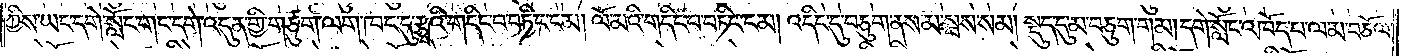ཀྱིས་ཡང་དགེ་སློང་གང་དགེ་འདུན་གྱི་གཙུག་ལག་ཁང་དུ་རྩྭའི་གདིང་བ་བཏིང་ངམ། ལོ་མའི་གདིང་བ་བཏིང་ངམ། འདིང་དུ་བཅུག་ནས་མ་སྦས་སམ། སྡུད་དུ་མ་བཅུག་གམ། དགེ་སློང་འཁོད་པ་ལ་མ་བཅོལ་
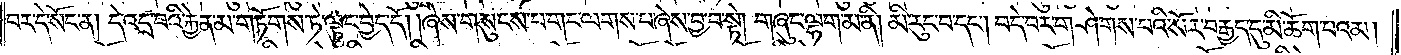བར་དེ་སོང་ན། དེ་འདྲ་བའི་རྐྱེན་མ་གཏོགས་ཏེ་ལྟུང་བྱེད་དོ། །ཞེས་གསུངས་པ་གང་ལགས་པ་ཞེས་བྱ་བ་སྟེ། གཞུང་ལྷག་མ་ནི། མི་རུང་བ་དང༌། བདེ་བར་གཤེགས་པའི་སོར་བརྒྱད་དུ་མི་ཆོག་པའམ།
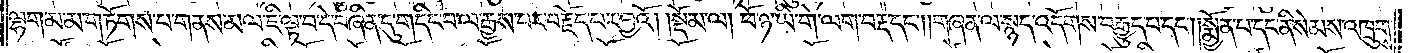ལྷག་མ་མ་གཏོགས་པ་གནས་མལ་ཇི་ལྟ་བ་དེ་བཞིན་དུ་གདིང་བ་ལ་རྒྱས་པར་བརྗོད་པར་བྱའོ། །སྡོམ་ལ། ཕོ་ཉ་ཡི་གེ་ལག་བརྡ་དང༌། །གཞན་ལ་སྙད་འདོགས་བརྒྱུད་པ་དང༌། །སྨྱོན་པ་དང་ནི་སེམས་འཁྲུགས་
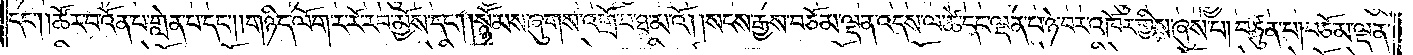དང༌། །ཚོར་བ་འོན་པ་གླེན་པ་དང༌། །གཉིད་ལོག་ར་རོ་རབ་མྱོས་དང༌། །སྙོམས་ཞུགས་འགྲོ་བ་ཐ་མ་འོ། །སངས་རྒྱས་བཅོམ་ལྡན་འདས་ལ་ཚེ་དང་ལྡན་པ་ཉེ་བར་འཁོར་གྱིས་ཞུས་པ། བཙུན་པ། བཅོམ་ལྡན་
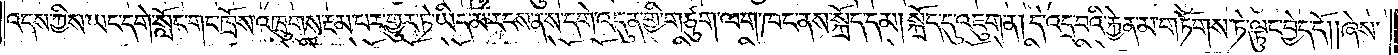འདས་ཀྱིས་ཡང་དགེ་སློང་གང་ཁྲོས་འཁྲུགས་རྔམ་པར་གྱུར་ཏེ་ཡིད་མ་རངས་ནས་དགེ་འདུན་གྱི་གཙུག་ལག་ཁང་ནས་སྐྲོད་དམ། སྐྲོད་དུ་འཇུག་ན། དེ་འདྲ་བའི་རྐྱེན་མ་གཏོགས་ཏེ་ལྟུང་བྱེད་དོ། །ཞེས་
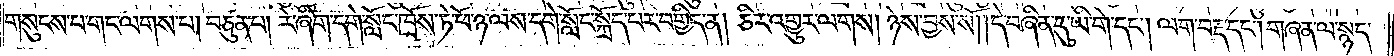གསུངས་པ་གང་ལགས་པ། བཙུན་པ། རེ་ཞིག་དགེ་སློང་ཁྲོས་ཏེ་ཕོ་ཉ་ལས་དགེ་སློང་སྐྲོད་པར་བགྱིད་ན། ཅིར་འགྱུར་ལགས། ཉེས་བྱས་སོ། །དེ་བཞིན་དུ་ཡི་གེ་དང༌། ལག་བརྡ་དང༌། གཞན་ལ་སྙད་
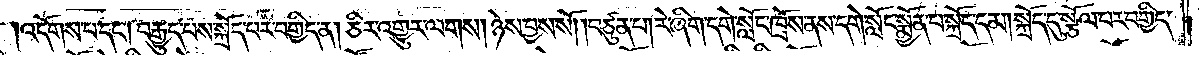འདོགས་པ་དང༌། བརྒྱུད་པས་སྐྲོད་པར་བགྱིད་ན། ཅིར་འགྱུར་ལགས། ཉེས་བྱས་སོ། །བཙུན་པ། རེ་ཞིག་དགེ་སློང་ཁྲོས་ནས་དགེ་སློང་སྨྱོན་པ་སྐྲོད་དམ། སྐྲོད་དུ་སྩོལ་པར་བགྱིད་
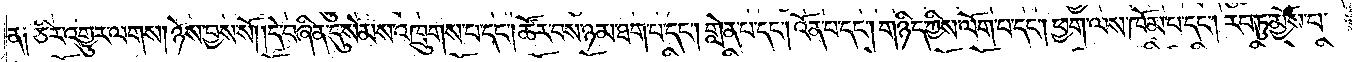ན༑ ཅིར་འགྱུར་ལགས། ཉེས་བྱས་སོ། །དེ་བཞིན་དུ་སེམས་འཁྲུགས་པ་དང༌། ཚོར་བས་ཉམ་ཐག་པ་དང༌། གླེན་པ་དང༌། འོན་པ་དང༌། གཉིད་ཀྱིས་ལོག་པ་དང༌། ཕྱག་ལས་ཁོམ་པ་དང༌། རབ་ཏུ་མྱོས་པ་
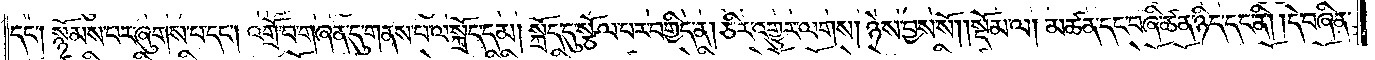དང༌། སྙོམས་པར་ཞུགས་པ་དང༌། འགྲོ་བ་གཞན་དུ་གནས་པ་ལ་སྐྲོད་དམ། སྐྲོད་དུ་སྩོལ་པར་བགྱིད་ན། ཅིར་འགྱུར་ལགས། ཉེས་བྱས་སོ།    །སྡོམ་ལ། མཚན་དང་བཞི་ཚན་ཉིད་དང་ནི། །དེ་བཞིན་
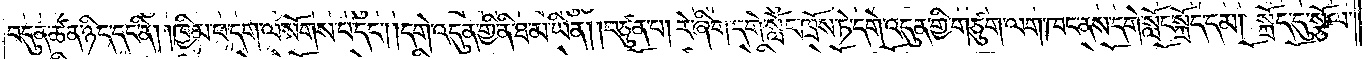བདུན་ཚན་ཉིད་དང་ནི། །ཁྱིམ་ཕ་དག་ལ་སོགས་པ་དང༌། དགེ་འདུན་གྱི་ནི་ཐ་མ་ཡིན། །བཙུན་པ། རེ་ཞིག་དགེ་སློང་ཁྲོས་ཏེ་དགེ་འདུན་གྱི་གཙུག་ལག་ཁང་ནས་དགེ་སློང་སྐྲོད་དམ། སྐྲོད་དུ་སྩོལ་
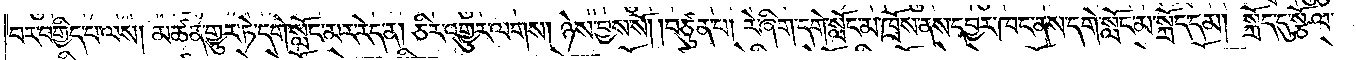བར་བགྱིད་པ་ལས། མཚན་གྱུར་ཏེ་དགེ་སློང་མར་རེད་ན། ཅིར་འགྱུར་ལགས། ཉེས་བྱས་སོ། །བཙུན་པ། རེ་ཞིག་དགེ་སློང་མ་ཁྲོས་ནས་དབྱར་ཁང་ནས་དགེ་སློང་མ་སྐྲོད་དམ། སྐྲོད་དུ་སྩོལ་
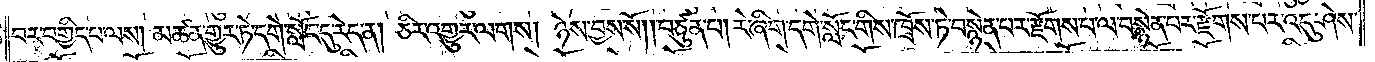བར་བགྱིད་པ་ལས། མཚན་གྱུར་ཏེ་དགེ་སློང་དུ་རེད་ན། ཅིར་འགྱུར་ལགས། ཉེས་བྱས་སོ། །བཙུན་པ། རེ་ཞིག་དགེ་སློང་གིས་ཁྲོས་ཏེ་བསྙེན་པར་རྫོགས་པ་ལ་བསྙེན་པར་རྫོགས་པར་འདུ་ཤེས་
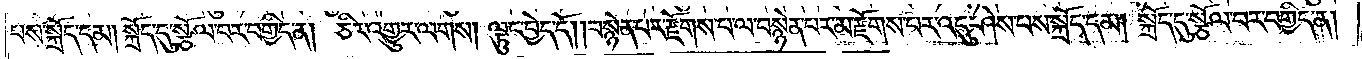པས་སྐྲོད་དམ། སྐྲོད་དུ་སྩོལ་པར་བགྱིད་ན། ཅིར་འགྱུར་ལགས། ལྟུང་བྱེད་དོ། །བསྙེན་པར་རྫོགས་པ་ལ་བསྙེན་པར་མ་རྫོགས་པར་འདུ་ཤེས་པས་སྐྲོད་དམ། སྐྲོད་དུ་སྩོལ་བར་བགྱིད་ན།
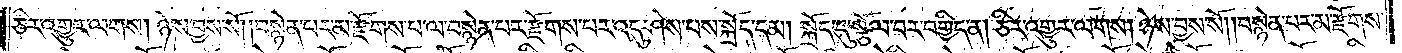ཅིར་འགྱུར་ལགས། ཉེས་བྱས་སོ། །བསྙེན་པར་མ་རྫོགས་པ་ལ་བསྙེན་པར་རྫོགས་པར་འདུ་ཤེས་པས་སྐྲོད་དམ། སྐྲོད་དུ་སྩོལ་བར་བགྱིད་ན། ཅིར་འགྱུར་ལགས། ཉེས་བྱས་སོ། །བསྙེན་པར་མ་རྫོགས་
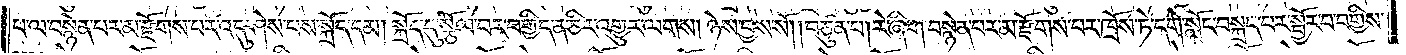པ་ལ་བསྙེན་པར་མ་རྫོགས་པར་འདུ་ཤེས་པས་སྐྲོད་དམ། སྐྲོད་དུ་སྩོལ་པར་བགྱིད་ན་ཅིར་འགྱུར་ལགས། ཉེས་བྱས་སོ། །བཙུན་པ། རེ་ཞིག་བསྙེན་པར་མ་རྫོགས་པར་ཁྲོས་ཏེ་དགེ་སློང་བསྐྲད་པར་སྦྱོར་བ་བགྱིས་
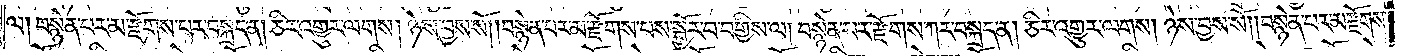ལ། བསྙེན་པར་མ་རྫོགས་པར་བསྐྲད་ན། ཅིར་འགྱུར་ལགས། ཉེས་བྱས་སོ། །བསྙེན་པར་མ་རྫོགས་པས་སྦྱོར་བ་བགྱིས་ལ། བསྙེན་པར་རྫོགས་ཀར་བསྐྲད་ན། ཅིར་འགྱུར་ལགས། ཉེས་བྱས་སོ། །བསྙེན་པར་མ་རྫོགས་
